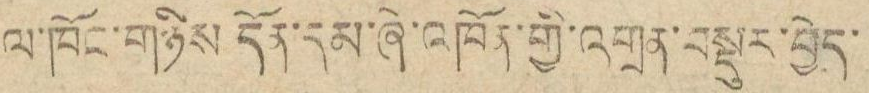ལ་ཁོང་གཉིས དོན་དམ་ཞེ་འཁོན་གྱི་འགྲན་བསྡུར་བྱེད་
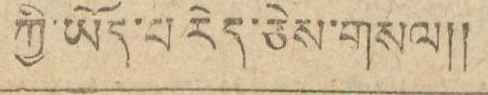ཀྱི་ཡོད་པ རེད་ཅེས་གསལ།།
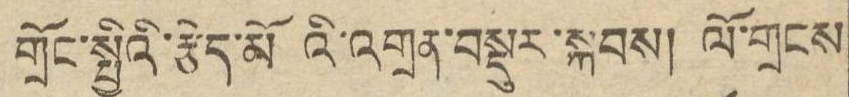གྲོང་སྤྱིའི་རྩེད་མོའི་འགྲན་བསྡུར་སྐབས། ལོ་གྲངས
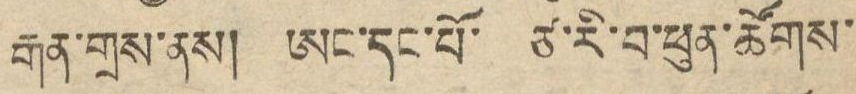རྒན་གྲས་ནས། ཨང་དང་པོ་ ཙ་རི་བ་ཕུན་ཚོགས་
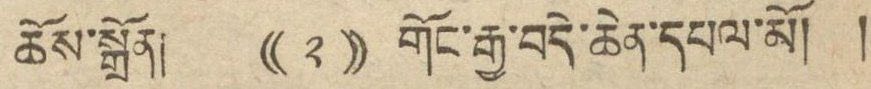ཆོས་སྒྲོན། (( ༢ )) གོང་རྒྱ་བདེ་ཆེན་དཔལ་མོ། །
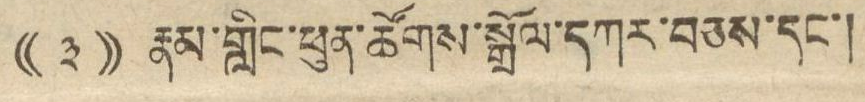(( ༣ )) རྣམ་གླིང་ཕུན་ཚོགས་སྒྲོལ་དཀར་བཅས་དང་།
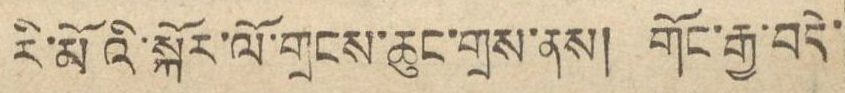རི་མོའི་སྐོར་ལོ་གྲངས་ཆུང་གྲས་ནས། གོང་རྒྱ་བདེ་
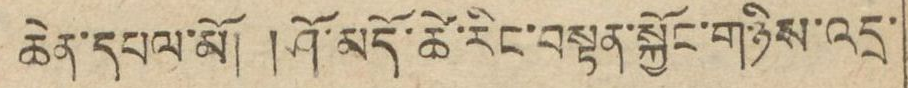ཆེན་དཔལ་མོ། །ཤོ་མདོ་ཚེ་རིང་བསྟན་སྐྱོང་གཉིས་འདྲ་
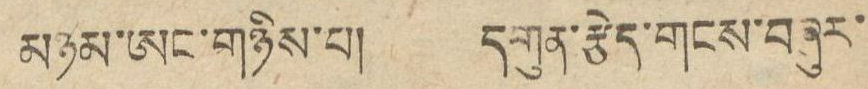མཉམ་ཨང་གཉིས་པ། དགུན་རྩེད་གངས་བཞུར་
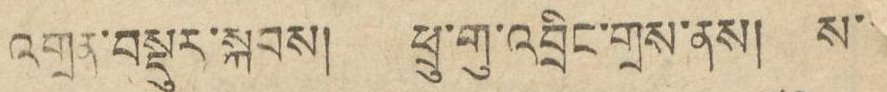འགྲན་བསྡུར་སྐབས། ཕྲུ་གུ་འབྲིང་གྲས་ནས། ས་
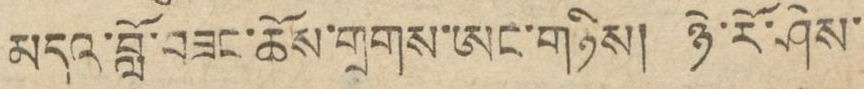མདའ་བློ་བཟང་ཆོས་གྲགས་ཨང་གཉིས། ཉེ་རོ་ཤེས་
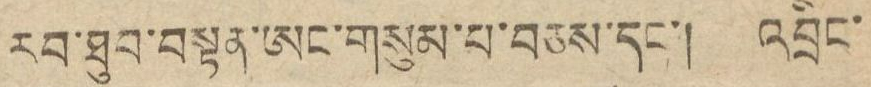རབ་ཐུབ་བསྟན་ཨང་གསུམ་པ་བཅས་དང་། འབྲིང་
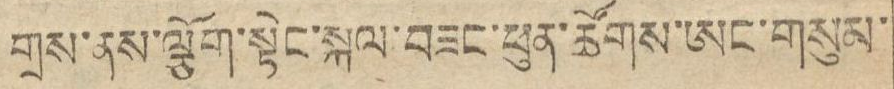གྲས་ནས་ལྕོག་སྟེང་སྐལ་བཟང་ཕུན་ཚོགས་ཨང་གསུམ་
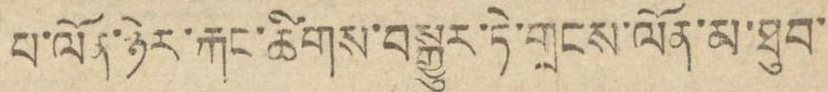པ་ལོན་ཉེར་རྐང་ཚིགས་བསྒྱུར་ཏེ་གྲངས་ལོན་མ་ཐུབ་
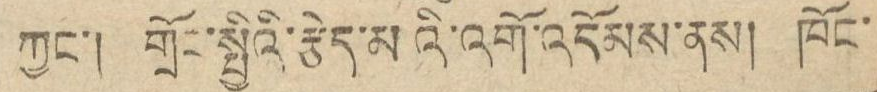ཀྱང་། གྲོང་སྤྱིའི་རྩེད་མའི་འགོ་འདོམས་ནས། ཁོང་
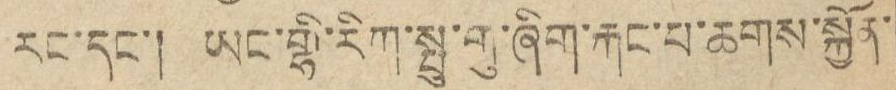རང་དང་། ཡང་གྷི་རིག་སྤུ་གུ་ཞིག་རྐང་པ་ཆགས་སྐྱོན་
